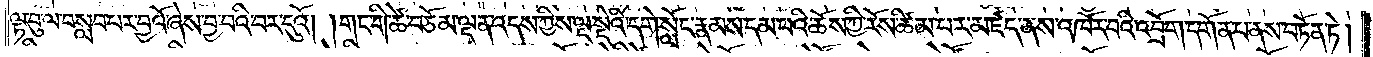ལྟ་བུ་ལ་བསླབ་པར་བྱའོ་ཞེས་བྱ་བའི་བར་དུའོ། །གང་གི་ཚེ་བཅོམ་ལྡན་འདས་ཀྱིས་ལྔ་སྡེའི་དགེ་སློང་རྣམས་དམ་པའི་ཆོས་ཀྱི་རོས་ཚིམ་པར་མཛད་ནས་འཁོར་བའི་འབྲོག་དགོན་པ་ནས་བཏོན་ཏེ།
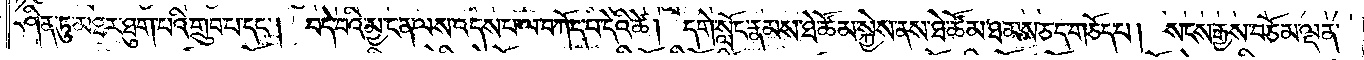ཤིན་ཏུ་མཐར་ཐུག་པའི་གྲུབ་པ་དང༌། བདེ་བའི་མྱ་ངན་ལས་འདས་པ་ལ་བཀོད་པ་དེའི་ཚེ། དགེ་སློང་རྣམས་ཐེ་ཚོམ་སྐྱེས་ནས་ཐེ་ཚོམ་ཐམས་ཅད་གཅོད་པ། སངས་རྒྱས་བཅོམ་ལྡན་
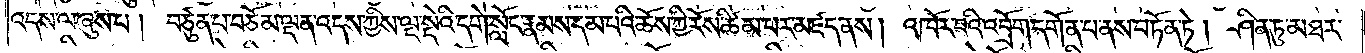འདས་ལ་ཞུས་པ། བཙུན་པ་བཅོམ་ལྡན་འདས་ཀྱིས་ལྔ་སྡེའི་དགེ་སློང་རྣམས་དམ་པའི་ཆོས་ཀྱི་རོས་ཚིམ་པར་མཛད་ནས། འཁོར་བའི་འབྲོག་དགོན་པ་ནས་བཏོན་ཏེ། ཤིན་ཏུ་མཐར་
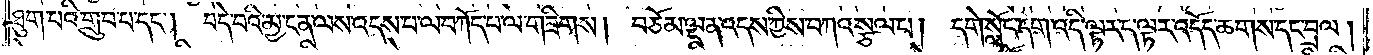ཐུག་པའི་གྲུབ་པ་དང༌། བདེ་བའི་མྱ་ངན་ལས་འདས་པ་ལ་བཀོད་པ་ལ་གཟིགས། བཅོམ་ལྡན་འདས་ཀྱིས་བཀའ་སྩལ་པ། དགེ་སློང་དག་འདི་ལྟར་ད་ལྟར་འདོད་ཆགས་དང་བྲལ།
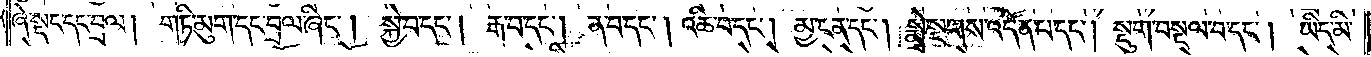ཞེ་སྡང་དང་བྲལ། གཏི་མུག་དང་བྲལ་ཞིང༌། སྐྱེ་བ་དང༌། རྒ་བ་དང༌། ན་བ་དང༌། འཆི་བ་དང༌། མྱ་ངན་དང༌། སྨྲེ་སྔགས་འདོན་པ་དང༌། སྡུག་བསྔལ་བ་དང༌། ཡིད་མི་
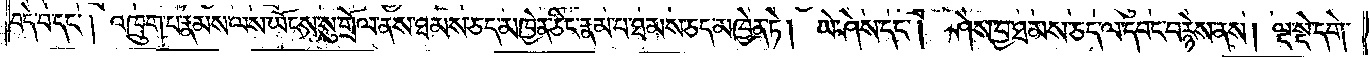བདེ་བ་དང༌། འཁྲུག་པ་རྣམས་ལས་ཡོངས་སུ་གྲོལ་ནས་ཐམས་ཅད་མཁྱེན་ཅིང་རྣམ་པ་ཐམས་ཅད་མཁྱེན་ཏེ། ཡེ་ཤེས་དང༌། ཤེས་བྱ་ཐམས་ཅད་ལ་དབང་བརྙེས་ནས། ལྔ་སྡེ་དགེ་
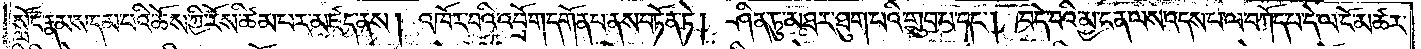སློང་རྣམས་དམ་པའི་ཆོས་ཀྱི་རོས་ཚིམ་པར་མཛད་ནས། འཁོར་བའི་འབྲོག་དགོན་པ་ནས་བཏོན་ཏེ། ཤིན་ཏུ་མཐར་ཐུག་པའི་གྲུབ་པ་དང༌། བདེ་བའི་མྱ་ངན་ལས་འདས་པ་ལ་བཀོད་པ་དེ་ལ་ངོ་མཚར་
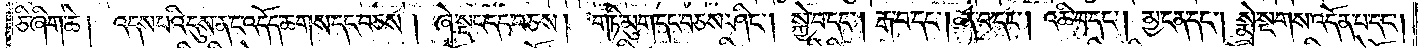ཅི་ཞིག་ཆེ། འདས་པའི་དུས་ནང་འདོད་ཆགས་དང་བཅས། ཞེ་སྡང་དང་བཅས། གཏི་མུག་དང་བཅས་ཤིང༌། སྐྱེ་བ་དང༌། རྒ་བ་དང༌། ན་བ་དང༌། འཆི་བ་དང༌། མྱ་ངན་དང༌། སྨྲེ་སྔགས་འདོན་པ་དང༌།
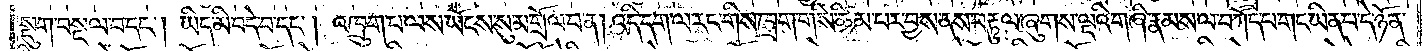སྡུག་བསྔལ་བ་དང༌། ཡིད་མི་བདེ་བ་དང༌། འཁྲུག་པ་ལས་ཡོངས་སུ་མ་གྲོལ་བ་ན། འདི་དག་ལ་རང་གིས་ཁྲག་གིས་ཚིམ་པར་བྱས་ནས་བརྟུལ་ཞུགས་ལྔའི་གཞི་རྣམས་ལ་བཀོད་པ་གང་ཡིན་པ་དེ་ཉོན་
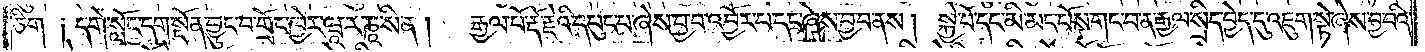ཅིག །དགེ་སློང་དག་སྔོན་བྱུང་བ་གྲོང་ཁྱེར་ཝཱ་ར་ཎཱ་སི་ན། རྒྱལ་པོ་རྡོ་རྗེའི་དཔུང་པ་ཞེས་བྱ་བ་འབྱོར་པ་དང་ཞེས་བྱ་བ་ནས། སྐྱེ་བོ་དང་མི་མང་པོས་གང་བ་ན་རྒྱལ་སྲིད་བྱེད་དུ་འཇུག་སྟེ་ཞེས་བྱ་བའི་
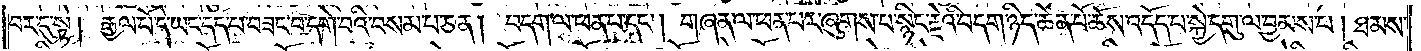བར་དུ་སྟེ། རྒྱལ་པོ་དེ་ཡང་དད་པ་བཟང་བ་དགེ་བའི་བསམ་པ་ཅན། བདག་ལ་ཕན་པ་དང༌། གཞན་ལ་ཕན་པར་ཞུགས་པ་སྙིང་རྗེའི་བདག་ཉིད་ཆེན་པོ་ཆོས་འདོད་པ་སྐྱེ་དགུ་ལ་བྱམས་པ། ཐམས་
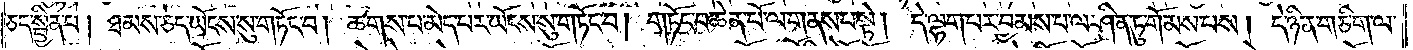ཅད་སྦྱིན་པ། ཐམས་ཅད་ཡོངས་སུ་གཏོང་བ། ཆགས་པ་མེད་པར་ཡོངས་སུ་གཏོང་བ། གཏོང་བ་ཆེན་པོ་ལ་གནས་པ་སྟེ། དེ་ལྷག་པར་བྱམས་པ་ལ་ཤིན་ཏུ་གོམས་པས། དེ་ཉིན་གཅིག་ལ་
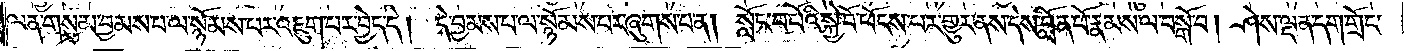ལན་གསུམ་བྱམས་པ་ལ་སྙོམས་པར་འཇུག་པར་བྱེད་དེ། དེ་བྱམས་པ་ལ་སྙོམས་པར་ཞུགས་པ་ན། སློང་བ་པོའི་སྐྱེ་བོ་ཕོངས་པར་གྱུར་ནས་དེས་བློན་པོ་རྣམས་ལ་བསྒོ་བ། ཤེས་ལྡན་དག་གྲོང་
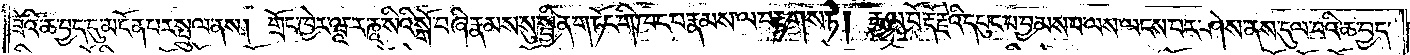ཟེའི་ཆ་བྱད་དུ་མངོན་པར་སྤྲུལ་ནས། གྲོང་ཁྱེར་ཝཱ་ར་ཎཱ་སིའི་སྒོ་བཞི་རྣམས་སུ་སྦྱིན་གཏོང་གི་ཁང་པ་རྣམས་ལ་བརྟགས་ཏེ། རྒྱལ་པོ་རྡོ་རྗེའི་དཔུང་པ་བྱམས་པ་ལས་ལངས་པར་ཤེས་ནས་དུལ་བའི་ཆ་བྱད་
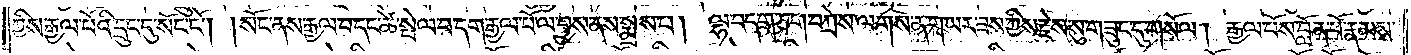ཀྱིས་རྒྱལ་པོའི་དྲུང་དུ་སོང་ངོ༌། །སོང་ནས་རྒྱལ་བ་དང་ཚེ་སྤེལ་བ་དག་རྒྱལ་པོ་ལ་བྱས་ནས་སྨྲས་པ། ལྷ་བདག་ཅག་བཀྲེས་ལགས་ན་གཡར་ཟས་ཀྱིས་རྗེས་སུ་གཟུང་དུ་གསོལ། རྒྱལ་པོས་བློན་པོ་རྣམས་
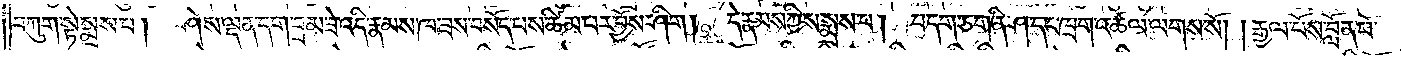བཀུག་སྟེ་སྨྲས་པ། ཤེས་ལྡན་དག་བྲམ་ཟེ་འདི་རྣམས་ཁ་ཟས་བསོད་པས་ཚིམ་པར་བྱོས་ཤིག །དེ་རྣམས་ཀྱིས་སྨྲས་པ། བདག་ཅག་ནི་ཤ་དང་ཁྲག་འཚལ་ལགས་སོ། །རྒྱལ་པོས་བློན་པོ་
